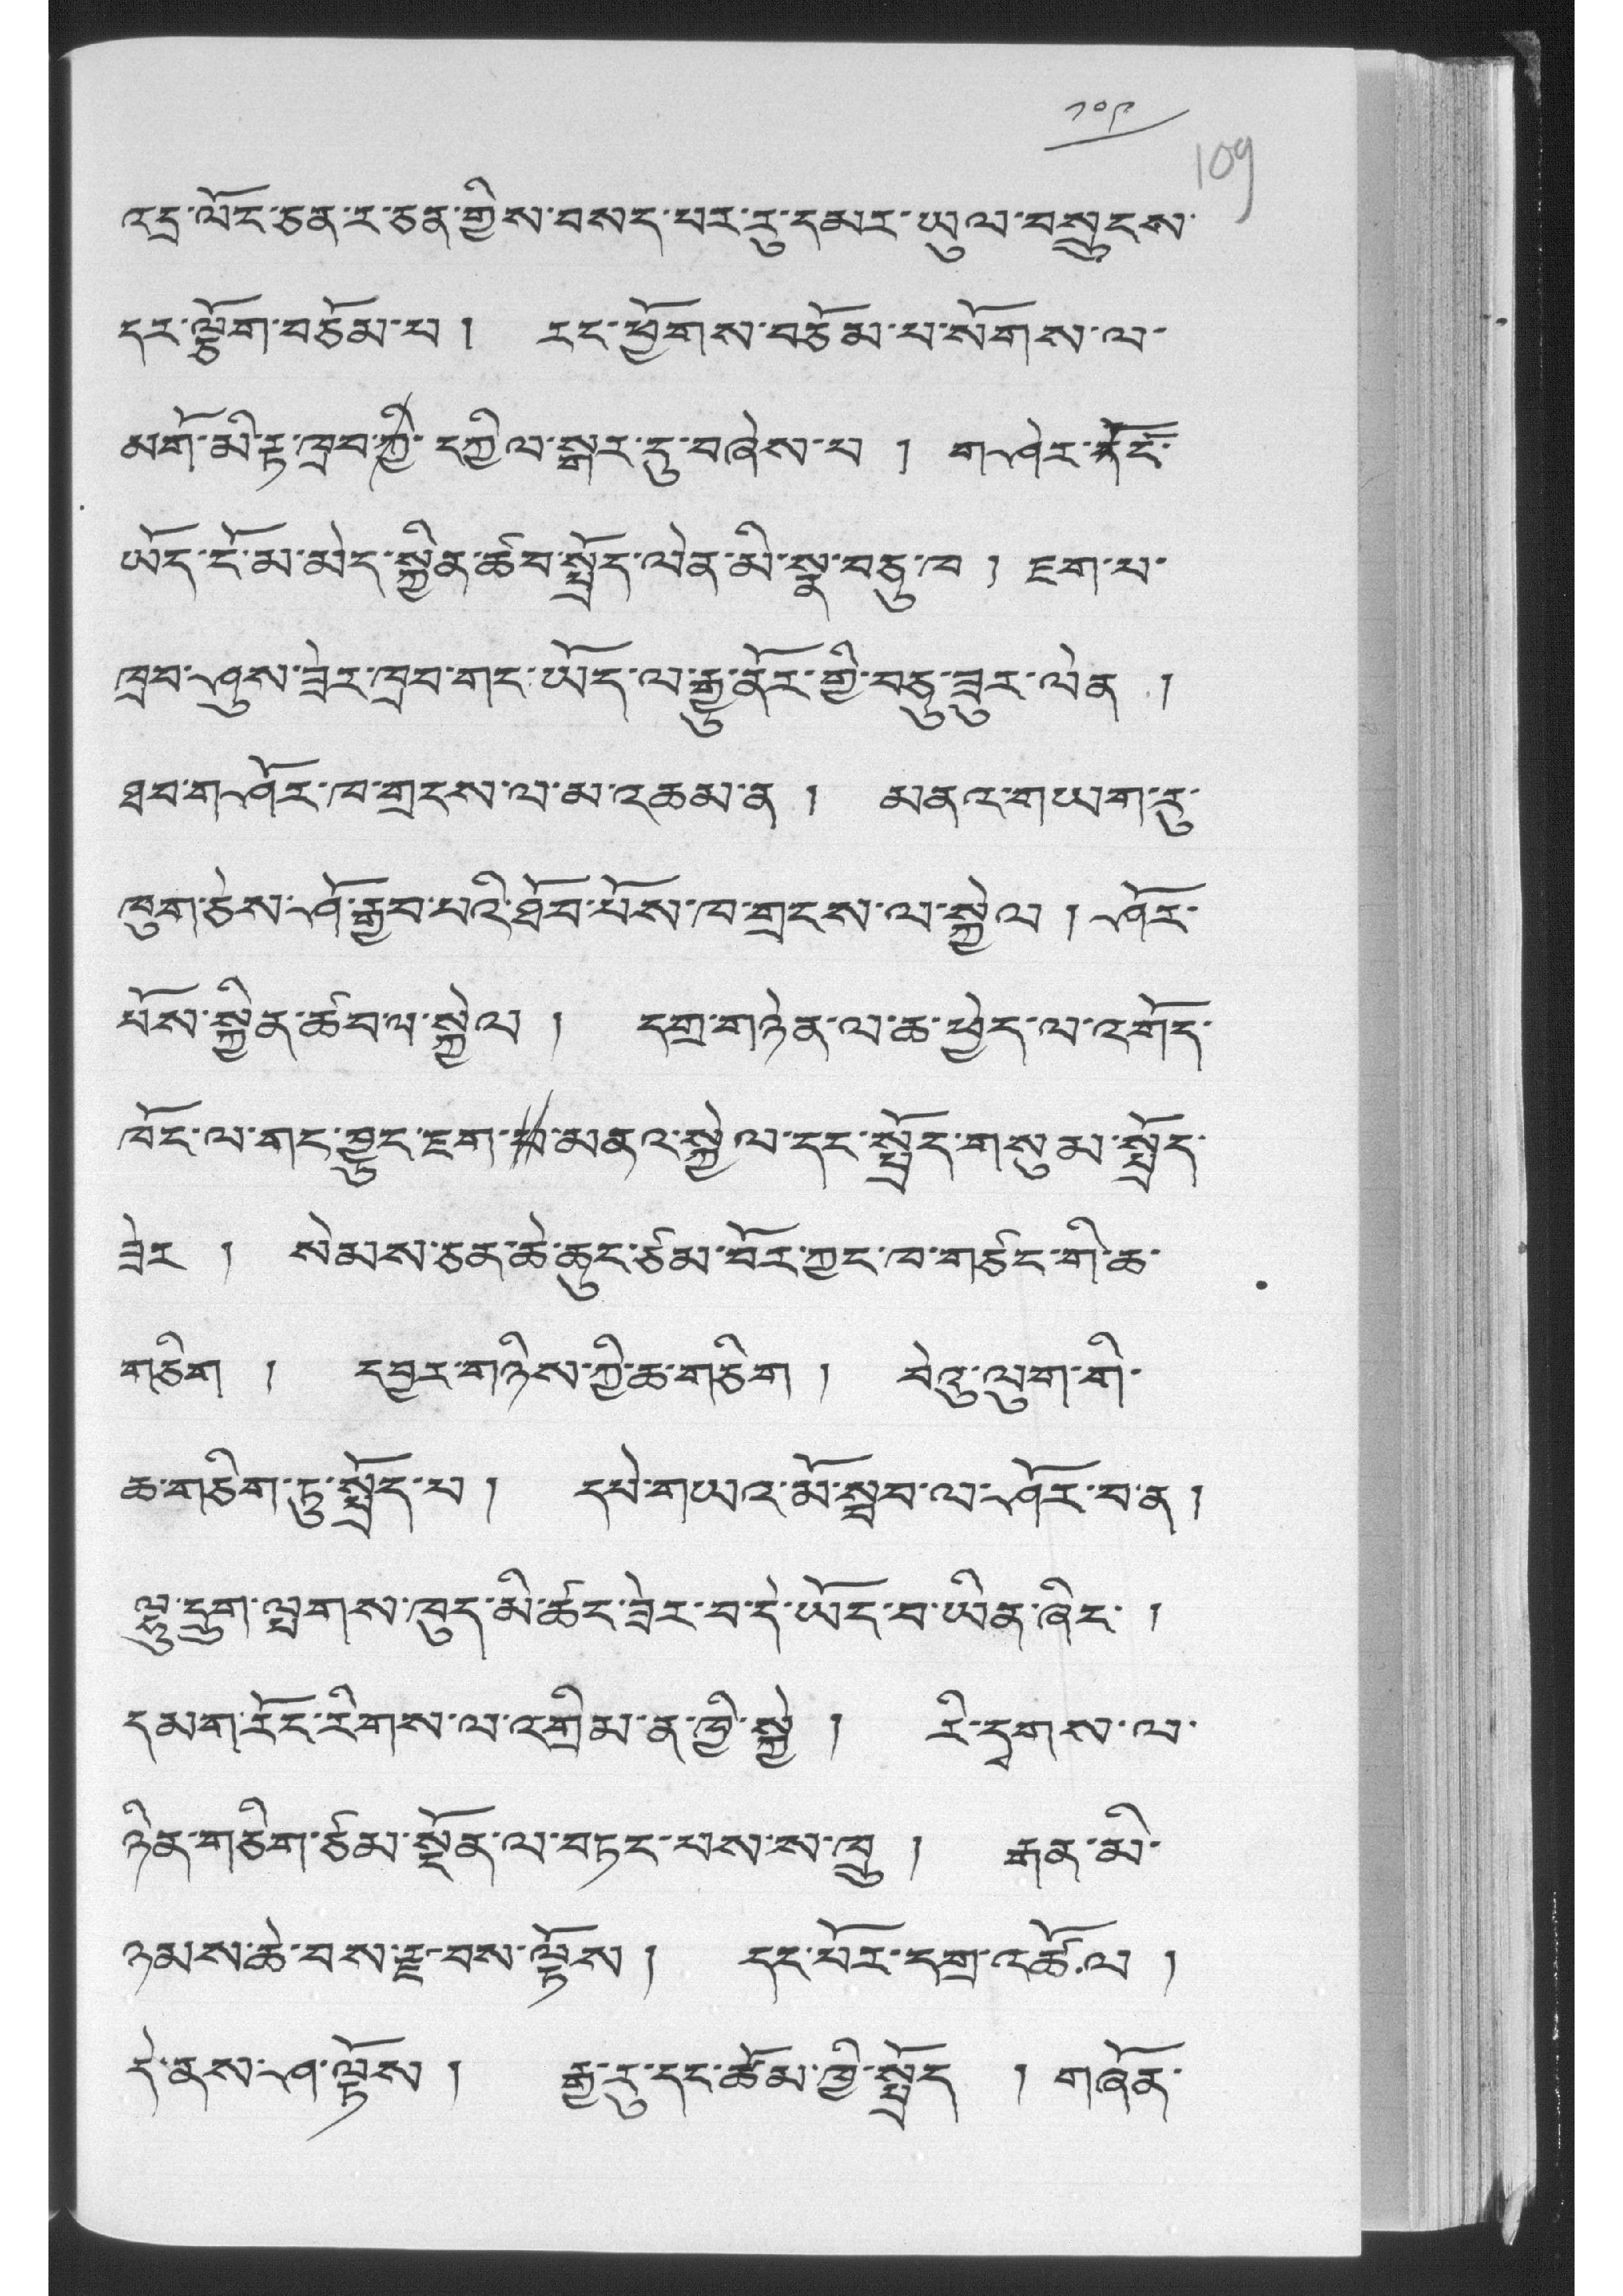༡༠༩
འདྲ་ལོང་ཅན་ར་ཅན་གྱིས་བསད་པར་རུ་དམར་ཡུལ་བསྲུངས་
དར་ལྕོག་བཅོམ་པ། རང་ཕྱོགས་བཅོམ་པ་སོགས་ལ་
མགོ་མི་རྟ་ཁྲབ་ཀྱི་དཀྱིལ་སྒར་དུ་བཞེས་པ ། ག་ཤེར་དོངོ་
ཡོད་ངོ་མ་མེད་སྐྱིན་ཚབ་སྤྲོད་ལེན་མི་སྣ་བཅུ་ཁ ། ཇག་པ་
ཁྲབ་ཤུས་ཟེར་ཁྲབ་གང་ཡོད་ལ་རྒྱུ་ནོར་གྱི་བཅུ་ཟུར་ལེན །
ཐབ་གཤཤོར་ཁ་གྲངས་ལ་མ་འཆམ་ན ། མནའ་གཡིག་རུ་
ཁུག་ཅེས་ཤོ་རྒྱབ་པའི་ཐོབ་པོས་ཁ་གྲངས་ལ་སྐྱེལ ། ཤོར་
པོས་སྐྱོན་ཚབ་ལ་སྐྱེལ ། དགྲ་གཉེན་ལ་ཆ་ཕྱེད་ལ་འགོད་
ཁོང་ལ་གང་བྱུང་ཇག་པ་མནའ་སྐྱེལ་དང་སྤྲོད་གསུམ་སྤྲོད་
ཟེར ། སེམས་ཅན་ཆེ་ཆུང་ཙམ་བོར་ཀྱང་ཁ་གཙང་གི་ཆ་
གཅིག ། དབྱར་གཉིས་ཀྱི་ཆ་གཅིག ། བེའུ་ལུག་གི་
ཆ་གཅིག་ཏུ་སྤྲོད་པ ། དམེ་གཡའ་མ་སྦབ་ལ་ཤོར་བ་ན །
ལྷུ་དྲུག་ལྤགས་ཁུད་མི་ཚང་ཟེར་བ་དེ་ཡོད་བ་ཡིན་ཞིང་ །
དམག་རོང་རིགས་ལ་འགྲིམ་ན་ཁྱི་སྐྱེ ། རི་དྭགས་ལ་
ཉིན་གཅིག་ཙམ་སྔོན་ལ་བཏང་པས་ས་ཁྲུ ། རྒན་མི་
ཉམས་ཆེ་བས་རྫ་བས་ལྟོས ། དང་པོར་དགྲ་འཚོ་ལ །
དེ་ནས་རཤ་ལྟོས ། རྒྱ་རུ་དང་ཚོམ་ཁྱི་སྤྲོད ། གཞོན་
